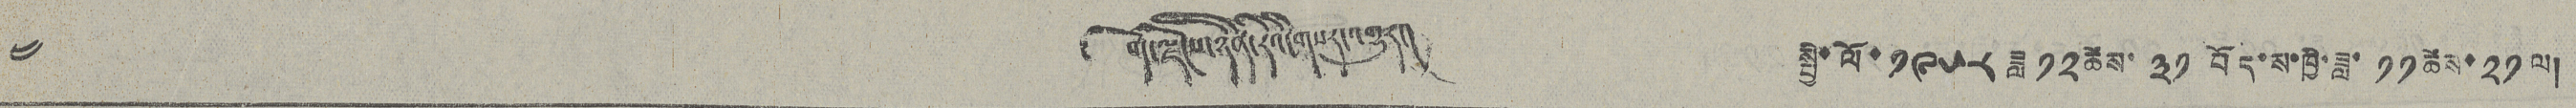༤  ༄ བོད་ལྗོངས་ཉིན་རེའི་གསར་འགྱུར།   སྤྱི་ལོ་ ༡༩༥༨  ཟླ ༡༢ ཚེས་ ༣༡  བོད་ས་ཁྱི་ཟླ་ ༡༡ ཚེས་ ༢༡ ལ།
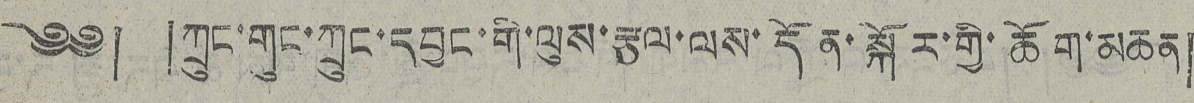༄༅། །ཀྲུང་གུང་ཀྲུང་དབྱང་གི་ལུས་རྩལ་ལས་དོན་སྐོར་གྱི་ཆོག་མཆན།
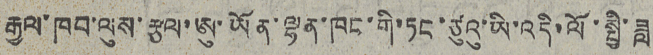རྒྱལ་ཁབ་ལུས་རྩལ་ཨུ་ཡོན་ལྷན་ཁང་གི་ཏང་ཙུའུ་ཡི་འདི་ལོ་སྤྱི་ཟླ
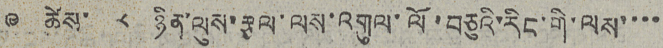༩ ཚེས་ ༨ ཉིན་ལུས་རྩལ་ལས་འགུལ་ལོ་བཅུའི་རིང་གི་ལས་་་་
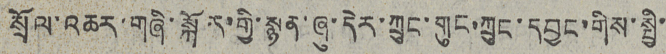སྲོལ་འཆར་གཞི་སྐོར་གྱི་སྙན་ཞུ་དེར་ཀྲུང་གུང་ཀྲུང་དབྱང་གིས་སྤྱི་
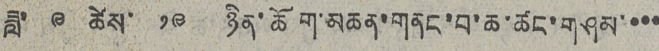ཟླ་ ༩ ཚེས་ ༡༩ ཉིན་ཆོག་མཆན་གནང་བ་ཆ་ཚང་གཤམ་་་་
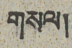གསལ།
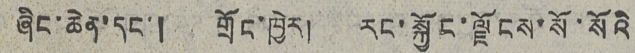ཞིང་ཆེན་དང་།  གྲོང་ཁྱེར།   རང་སྐྱོང་ལྗོངས་སོ་སོའི
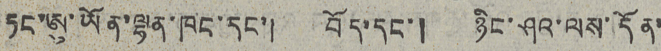ཏང་ཨུ་ཡོན་ལྷན་ཁང་དང་། བོད་དང་། ཉིང་ཤའ་ལས་དོན་
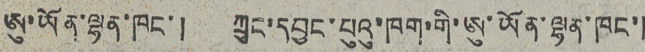ཨུ་ཡོན་ལྷན་ཁང་། ཀྲུང་དབྱང་པུའུ་ཁག་གི་ཨུ་ཡོན་ལྷན་ཁང་།
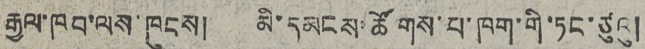རྒྱལ་ཁབ་ལས་ཁུངས། མི་དམངས་ཚོགས་པ་ཁག་གི་ཏང་ཙུའུ།
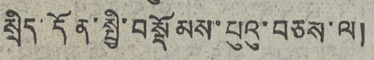སྲིད་དོན་སྤྱི་བསྡོམས་པུའུ་བཅས་ལ།
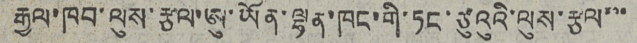རྒྱལ་ཁབ་ལུས་རྩལ་ཨུ་ཡོན་ལྷན་ཁང་གི་ཏང་ཙུའུའི་ལུས་རྩལ་་་་
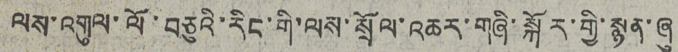ལས་འགུལ་ལོ་བཅུའི་རིང་གི་ལས་སྲོལ་འཆར་གཞི་སྐོར་གྱི་སྙན་ཞུ
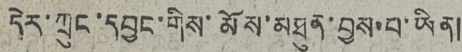དེར་ཀྲུང་དབྱང་གིས་མོས་མཐུན་བྱས་པ་ཡིན།
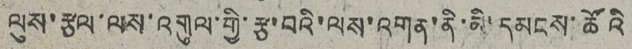ལུས་རྩལ་ལས་འགུལ་གྱི་རྩ་བའི་ལས་འགན་ནི་མི་དམངས་ཚོའི
